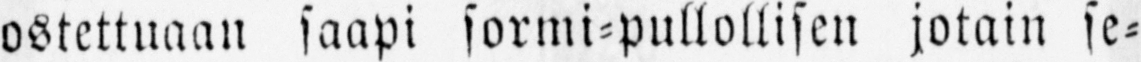ostettuaan saapi sormi-pullollisen jotain se-
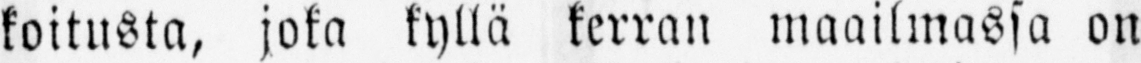koitusta, joka kyllä kerran maailmassa on
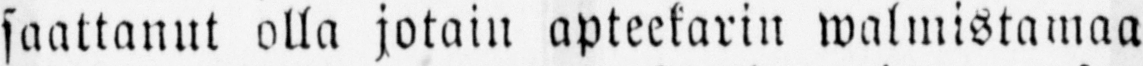saattanut olla jotain apteekarin walmistamaa
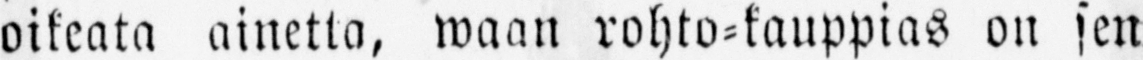oikeata ainetta, waan rohto-kauppias on sen
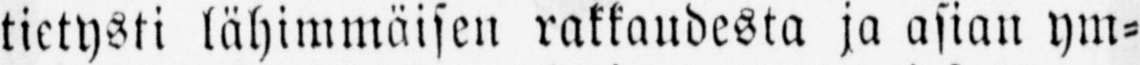tietysti lähimmäisen rakkaudesta ja asian ym-
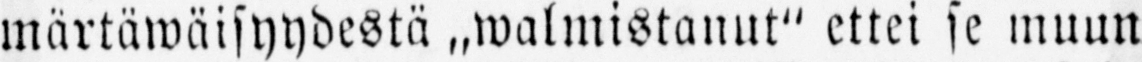märtäwäisyydestä „walmistanut" ettei se muun
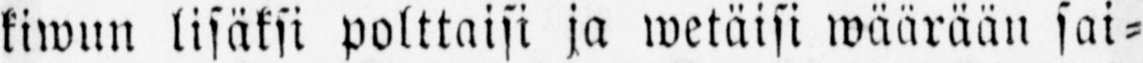kiwun lisäksi polttaisi ja wetäisi wäärään sai-
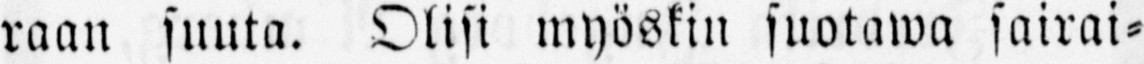raan suuta. Olisi myöskin suotawa sairai-
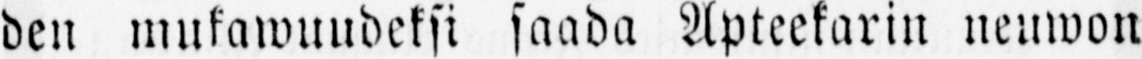den mukawuudeksi saada Apteekarin neuwon
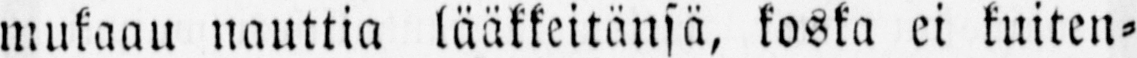mukaau nauttia lääkkeitänsä, koska ei kuiten-
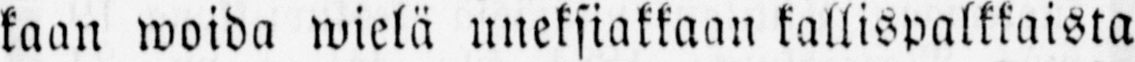kaan woida wielä uneksiakkaan kallispalkkaista
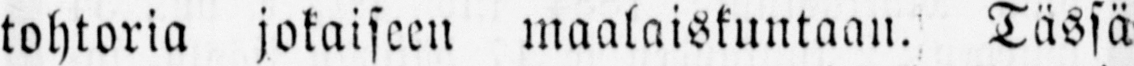tohtoria jokaiseen maalaiskuntaan. Tässä
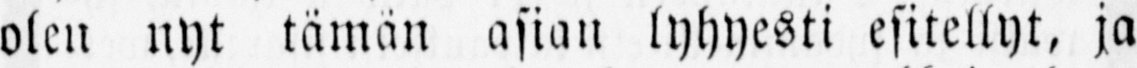olen nyt tämän asian lyhyesti esitellyt, ja
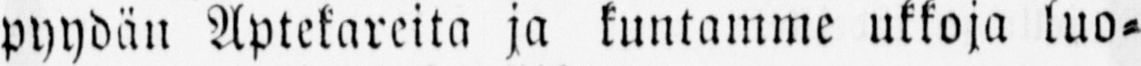pyydän Aptekareita ja kuntamme ukkoja luo-
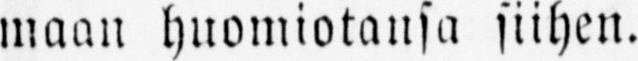maan huomiotansa siihen.
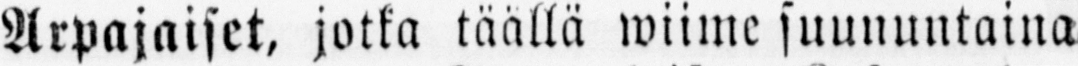Arpajaiset, jotka täällä wiime sunnuntaina
